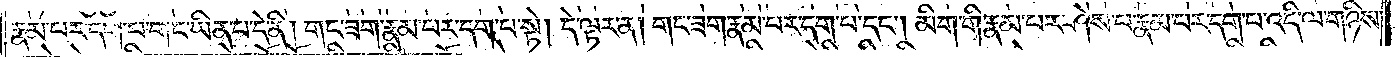རྣམ་པར་དག་པ་གང་ཡིན་པ་དེ་ནི། གང་ཟག་རྣམ་པར་དག་པ་སྟེ། དེ་ལྟར་ན། གང་ཟག་རྣམ་པར་དག་པ་དང༌། མིག་གི་རྣམ་པར་ཤེས་པ་རྣམ་པར་དག་པ་འདི་ལ་གཉིས་
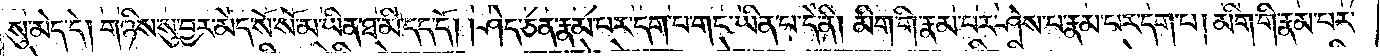སུ་མེད་དེ། གཉིས་སུ་བྱར་མེད་སོ་སོ་མ་ཡིན་ཐ་མི་དད་དོ། །ཤེད་ཅན་རྣམ་པར་དག་པ་གང་ཡིན་པ་དེ་ནི། མིག་གི་རྣམ་པར་ཤེས་པ་རྣམ་པར་དག་པ། མིག་གི་རྣམ་པར་
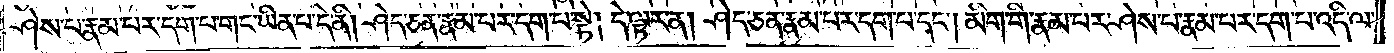ཤེས་པ་རྣམ་པར་དག་པ་གང་ཡིན་པ་དེ་ནི། ཤེད་ཅན་རྣམ་པར་དག་པ་སྟེ། དེ་ལྟར་ན། ཤེད་ཅན་རྣམ་པར་དག་པ་དང༌། མིག་གི་རྣམ་པར་ཤེས་པ་རྣམ་པར་དག་པ་འདི་ལ་
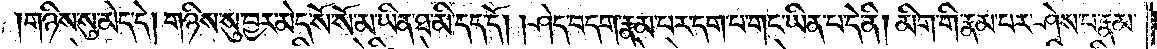གཉིས་སུ་མེད་དེ། གཉིས་སུ་བྱར་མེད་སོ་སོ་མ་ཡིན་ཐ་མི་དད་དོ། །ཤེད་བདག་རྣམ་པར་དག་པ་གང་ཡིན་པ་དེ་ནི། མིག་གི་རྣམ་པར་ཤེས་པ་རྣམ་
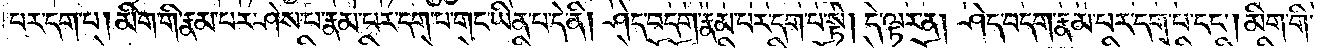པར་དག་པ། མིག་གི་རྣམ་པར་ཤེས་པ་རྣམ་པར་དག་པ་གང་ཡིན་པ་དེ་ནི། ཤེད་བདག་རྣམ་པར་དག་པ་སྟེ། དེ་ལྟར་ན། ཤེད་བདག་རྣམ་པར་དག་པ་དང༌། མིག་གི་
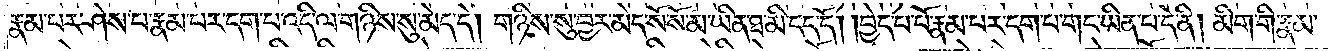རྣམ་པར་ཤེས་པ་རྣམ་པར་དག་པ་འདི་ལ་གཉིས་སུ་མེད་དེ། གཉིས་སུ་བྱར་མེད་སོ་སོ་མ་ཡིན་ཐ་མི་དད་དོ། །བྱེད་པ་པོ་རྣམ་པར་དག་པ་གང་ཡིན་པ་དེ་ནི། མིག་གི་རྣམ་
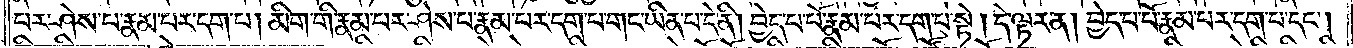པར་ཤེས་པ་རྣམ་པར་དག་པ། མིག་གི་རྣམ་པར་ཤེས་པ་རྣམ་པར་དག་པ་གང་ཡིན་པ་དེ་ནི། བྱེད་པ་པོ་རྣམ་པར་དག་པ་སྟེ། དེ་ལྟར་ན། བྱེད་པ་པོ་རྣམ་པར་དག་པ་དང༌།
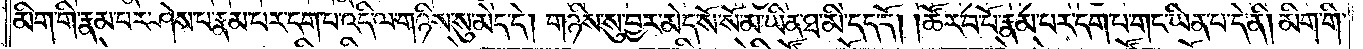མིག་གི་རྣམ་པར་ཤེས་པ་རྣམ་པར་དག་པ་འདི་ལ་གཉིས་སུ་མེད་དེ། གཉིས་སུ་བྱར་མེད་སོ་སོ་མ་ཡིན་ཐ་མི་དད་དོ། ཚོར་བ་པོ་རྣམ་པར་དག་པ་གང་ཡིན་པ་དེ་ནི། མིག་གི་
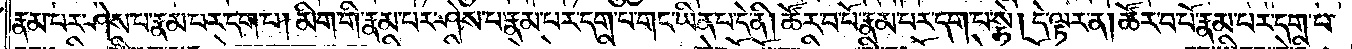རྣམ་པར་ཤེས་པ་རྣམ་པར་དག་པ། མིག་གི་རྣམ་པར་ཤེས་པ་རྣམ་པར་དག་པ་གང་ཡིན་པ་དེ་ནི། ཚོར་བ་པོ་རྣམ་པར་དག་པ་སྟེ། དེ་ལྟར་ན། ཚོར་བ་པོ་རྣམ་པར་དག་པ་
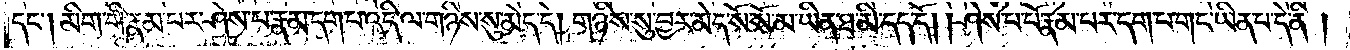དང༌། མིག་གི་རྣམ་པར་ཤེས་པ་རྣམ་པར་དག་པ་འདི་ལ་གཉིས་སུ་མེད་དེ། གཉིས་སུ་བྱར་མེད་སོ་སོ་མ་ཡིན་ཐ་མི་དད་དོ། །ཤེས་པ་པོ་རྣམ་པར་དག་པ་གང་ཡིན་པ་དེ་ནི།
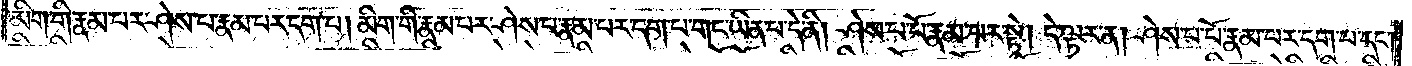མིག་གི་རྣམ་པར་ཤེས་པ་རྣམ་པར་དག་པ། མིག་གི་རྣམ་པར་ཤེས་པ་རྣམ་པར་དག་པ་གང་ཡིན་པ་དེ་ནི། ཤེས་པ་པོ་རྣམ་པར་དག་པ་སྟེ། དེ་ལྟར་ན། ཤེས་པ་པོ་རྣམ་པར་དག་པ་དང༌།
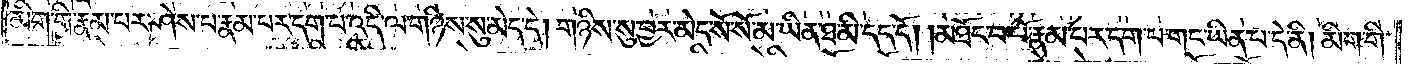མིག་གི་རྣམ་པར་ཤེས་པ་རྣམ་པར་དག་པ་འདི་ལ་གཉིས་སུ་མེད་དེ། གཉིས་སུ་བྱར་མེད་སོ་སོ་མ་ཡིན་ཐ་མི་དད་དོ། །མཐོང་བ་པོ་རྣམ་པར་དག་པ་གང་ཡིན་པ་དེ་ནི། མིག་གི་
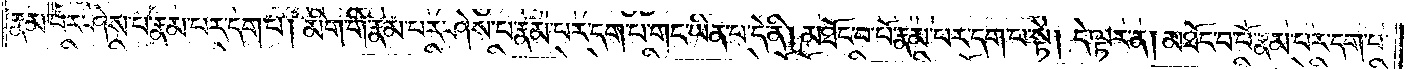རྣམ་པར་ཤེས་པ་རྣམ་པར་དག་པ། མིག་གི་རྣམ་པར་ཤེས་པ་རྣམ་པར་དག་པ་གང་ཡིན་པ་དེ་ནི། མཐོང་བ་པོ་རྣམ་པར་དག་པ་སྟེ། དེ་ལྟར་ན། མཐོང་བ་པོ་རྣམ་པར་དག་པ་
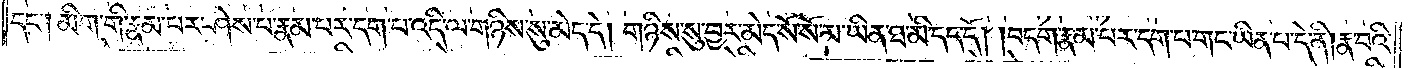དང༌། མིག་གི་རྣམ་པར་ཤེས་པ་རྣམ་པར་དག་པ་འདི་ལ་གཉིས་སུ་མེད་དེ། གཉིས་སུ་བྱར་མེད་སོ་སོ་མ་ཡིན་ཐ་མི་དད་དོ། །བདག་རྣམ་པར་དག་པ་གང་ཡིན་པ་དེ་ནི། རྣ་བའི་
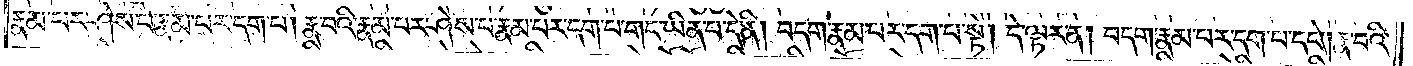རྣམ་པར་ཤེས་པ་རྣམ་པར་དག་པ། རྣ་བའི་རྣམ་པར་ཤེས་པ་རྣམ་པར་དག་པ་གང་ཡིན་པ་དེ་ནི། བདག་རྣམ་པར་དག་པ་སྟེ། དེ་ལྟར་ན། བདག་རྣམ་པར་དག་པ་དང༌། རྣ་བའི་
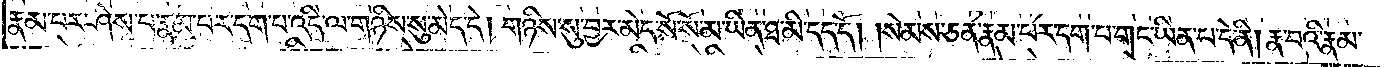རྣམ་པར་ཤེས་པ་རྣམ་པར་དག་པ་འདི་ལ་གཉིས་སུ་མེད་དེ། གཉིས་སུ་བྱར་མེད་སོ་སོ་མ་ཡིན་ཐ་མི་དད་དོ། །སེམས་ཅན་རྣམ་པར་དག་པ་གང་ཡིན་པ་དེ་ནི། རྣ་བའི་རྣམ་
